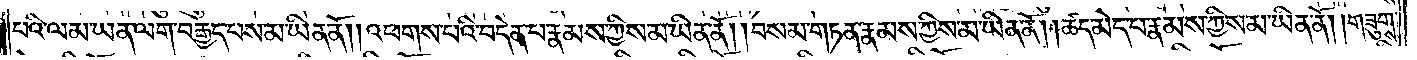པའི་ལམ་ཡན་ལག་བརྒྱད་པས་མ་ཡིན་ནོ། །འཕགས་པའི་བདེན་པ་རྣམས་ཀྱིས་མ་ཡིན་ནོ། །བསམ་གཏན་རྣམས་ཀྱིས་མ་ཡིན་ནོ། །ཚད་མེད་པ་རྣམས་ཀྱིས་མ་ཡིན་ནོ། །གཟུགས་
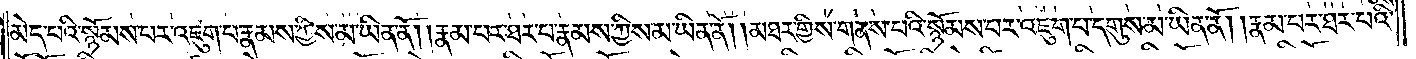མེད་པའི་སྙོམས་པར་འཇུག་པ་རྣམས་ཀྱིས་མ་ཡིན་ནོ། །རྣམ་པར་ཐར་པ་རྣམས་ཀྱིས་མ་ཡིན་ནོ། །མཐར་གྱིས་གནས་པའི་སྙོམས་པར་འཇུག་པ་དགུས་མ་ཡིན་ནོ། །རྣམ་པར་ཐར་པའི་
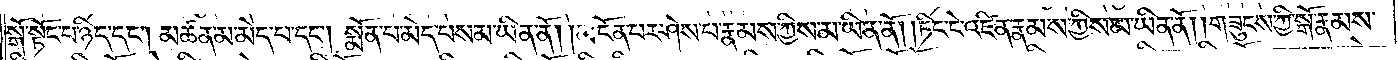སྒོ་སྟོང་པ་ཉིད་དང༌། མཚན་མ་མེད་པ་དང༌། སྨོན་པ་མེད་པས་མ་ཡིན་ནོ། །མངོན་པར་ཤེས་པ་རྣམས་ཀྱིས་མ་ཡིན་ནོ། །ཏིང་ངེ་འཛིན་རྣམས་ཀྱིས་མ་ཡིན་ནོ། །གཟུངས་ཀྱི་སྒོ་རྣམས་
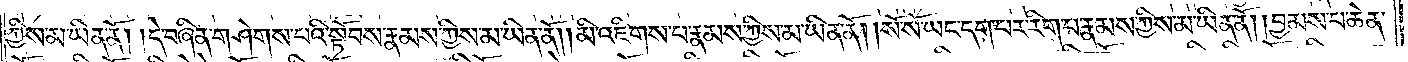ཀྱིས་མ་ཡིན་ནོ། །དེ་བཞིན་གཤེགས་པའི་སྟོབས་རྣམས་ཀྱིས་མ་ཡིན་ནོ། །མི་འཇིགས་པ་རྣམས་ཀྱིས་མ་ཡིན་ནོ། །སོ་སོ་ཡང་དག་པར་རིག་པ་རྣམས་ཀྱིས་མ་ཡིན་ནོ། བྱམས་པ་ཆེན་
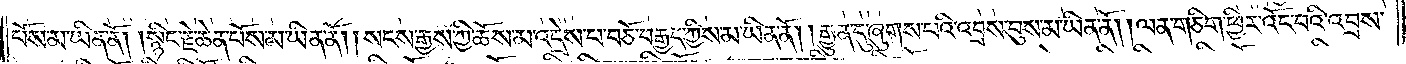པོས་མ་ཡིན་ནོ། །སྙིང་རྗེ་ཆེན་པོས་མ་ཡིན་ནོ། །སངས་རྒྱས་ཀྱི་ཆོས་མ་འདྲེས་པ་བཅོ་བརྒྱད་ཀྱིས་མ་ཡིན་ནོ། །རྒྱུན་དུ་ཞུགས་པའི་འབྲས་བུས་མ་ཡིན་ནོ། །ལན་གཅིག་ཕྱིར་འོང་བའི་འབྲས་
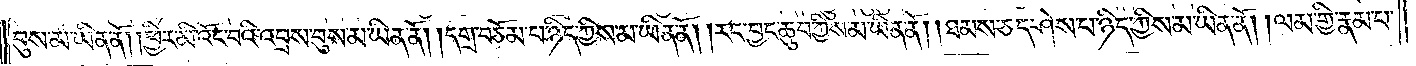བུས་མ་ཡིན་ནོ། །ཕྱིར་མི་འོང་བའི་འབྲས་བུས་མ་ཡིན་ནོ། །དགྲ་བཅོམ་པ་ཉིད་ཀྱིས་མ་ཡིན་ནོ། །རང་བྱང་ཆུབ་ཀྱིས་མ་ཡིན་ནོ། །ཐམས་ཅད་ཤེས་པ་ཉིད་ཀྱིས་མ་ཡིན་ནོ། །ལམ་གྱི་རྣམ་པ་
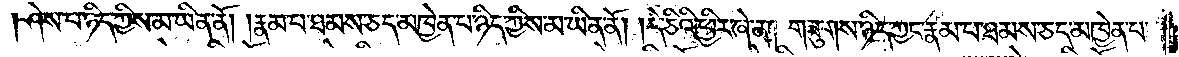ཤེས་པ་ཉིད་ཀྱིས་མ་ཡིན་ནོ། །རྣམ་པ་ཐམས་ཅད་མཁྱེན་པ་ཉིད་ཀྱིས་མ་ཡིན་ནོ། །དེ་ཅིའི་ཕྱིར་ཞེ་ན། གཟུགས་ཉིད་ཀྱང་རྣམ་པ་ཐམས་ཅད་མཁྱེན་པ་
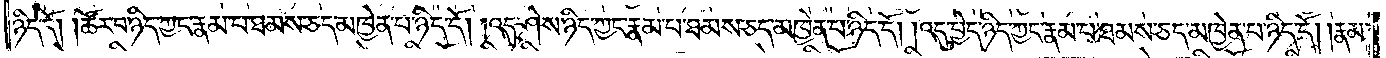ཉིད་དོ། །ཚོར་བ་ཉིད་ཀྱང་རྣམ་པ་ཐམས་ཅད་མཁྱེན་པ་ཉིད་དོ། །འདུ་ཤེས་ཉིད་ཀྱང་རྣམ་པ་ཐམས་ཅད་མཁྱེན་པ་ཉིད་དོ། །འདུ་བྱེད་ཉིད་ཀྱང་རྣམ་པ་ཐམས་ཅད་མཁྱེན་པ་ཉིད་དོ། །རྣམ་
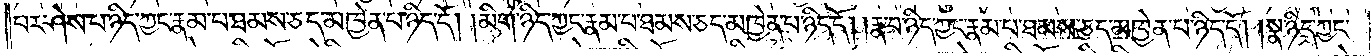པར་ཤེས་པ་ཉིད་ཀྱང་རྣམ་པར་ཐམས་ཅད་མཁྱེན་པ་ཉིད་དོ། །མིག་ཉིད་ཀྱང་རྣམ་པ་ཐམས་ཅད་མཁྱེན་པ་ཉིད་དོ། །རྣ་བ་ཉིད་ཀྱང་རྣམ་པ་ཐམས་ཅད་མཁྱེན་པ་ཉིད་དོ། །སྣ་ཉིད་ཀྱང་
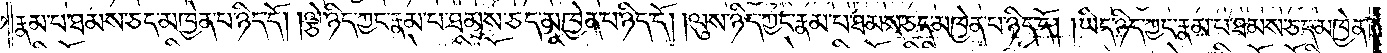རྣམ་པ་ཐམས་ཅད་མཁྱེན་པ་ཉིད་དོ། །ལྕེ་ཉིད་ཀྱང་རྣམ་པ་ཐམས་ཅད་མཁྱེན་པ་ཉིད་དོ། །ལུས་ཉིད་ཀྱང་རྣམ་པ་ཐམས་ཅད་མཁྱེན་པ་ཉིད་དོ། །ཡིད་ཉིད་ཀྱང་རྣམ་པ་ཐམས་ཅད་མཁྱེན་
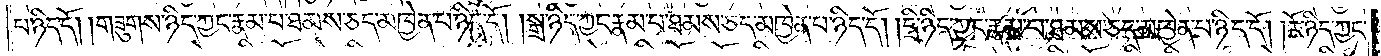པ་ཉིད་དོ། །གཟུགས་ཉིད་ཀྱང་རྣམ་པ་ཐམས་ཅད་མཁྱེན་པ་ཉིད་དོ། །སྒྲ་ཉིད་ཀྱང་རྣམ་པ་ཐམས་ཅད་མཁྱེན་པ་ཉིད་དོ། །དྲི་ཉིད་ཀྱང་རྣམ་པ་ཐམས་ཅད་མཁྱེན་པ་ཉིད་དོ། །རོ་ཉིད་ཀྱང་
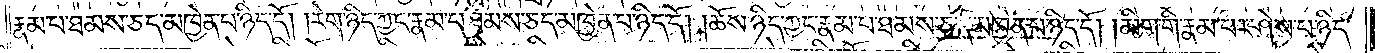རྣམ་པ་ཐམས་ཅད་མཁྱེན་པ་ཉིད་དོ། །རེག་ཉིད་ཀྱང་རྣམ་པ་ཐམས་ཅད་མཁྱེན་པ་ཉིད་དོ། །ཆོས་ཉིད་ཀྱང་རྣམ་པ་ཐམས་ཅད་མཁྱེན་པ་ཉིད་དོ། །མིག་གི་རྣམ་པར་ཤེས་པ་ཉིད་
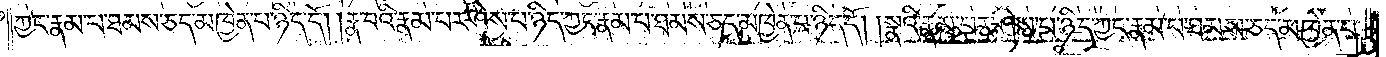ཀྱང་རྣམ་པ་ཐམས་ཅད་མཁྱེན་པ་ཉིད་དོ། །རྣ་བའི་རྣམ་པར་ཤེས་པ་ཉིད་ཀྱང་རྣམ་པ་ཐམས་ཅད་མཁྱེན་པ་ཉིད་དོ། །སྣའི་རྣམ་པར་ཤེས་པ་ཉིད་ཀྱང་རྣམ་པ་ཐམས་ཅད་མཁྱེན་པ་
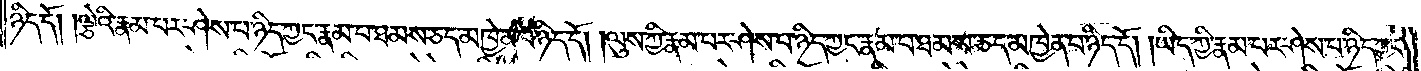ཉིད་དོ། །ལྕེའི་རྣམ་པར་ཤེས་པ་ཉིད་ཀྱང་རྣམ་པ་ཐམས་ཅད་མཁྱེན་པ་ཉིད་དོ། །ལུས་ཀྱི་རྣམ་པར་ཤེས་པ་ཉིད་ཀྱང་རྣམ་པ་ཐམས་ཅད་མཁྱེན་པ་ཉིད་དོ། །ཡིད་ཀྱི་རྣམ་པར་ཤེས་པ་ཉིད་ཀྱང་
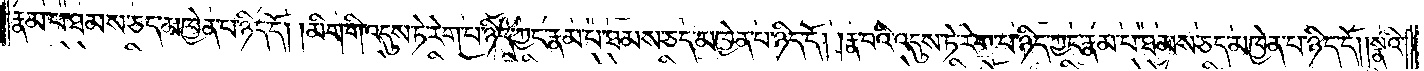རྣམ་པ་ཐམས་ཅད་མཁྱེན་པ་ཉིད་དོ། །མིག་གི་འདུས་ཏེ་རེག་པ་ཉིད་ཀྱང་རྣམ་པ་ཐམས་ཅད་མཁྱེན་པ་ཉིད་དོ། །རྣ་བའི་འདུས་ཏེ་རེག་པ་ཉིད་ཀྱང་རྣམ་པ་ཐམས་ཅད་མཁྱེན་པ་ཉིད་དོ། །སྣའི་
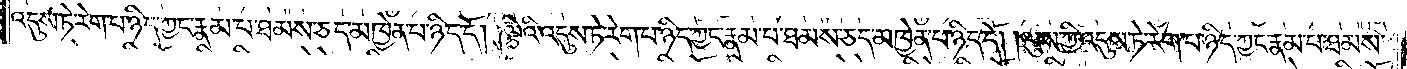འདུས་ཏེ་རེག་པ་ཉིད་ཀྱང་རྣམ་པ་ཐམས་ཅད་མཁྱེན་པ་ཉིད་དོ། །ལྕེའི་འདུས་ཏེ་རེག་པ་ཉིད་ཀྱང་རྣམ་པ་ཐམས་ཅད་མཁྱེན་པ་ཉིད་དོ། །ལུས་ཀྱི་འདུས་ཏེ་རེག་པ་ཉིད་ཀྱང་རྣམ་པ་ཐམས་
